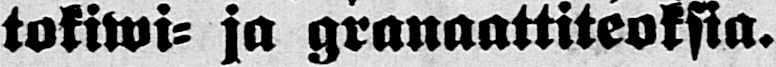tokiwi- ja granaattiteoksia.
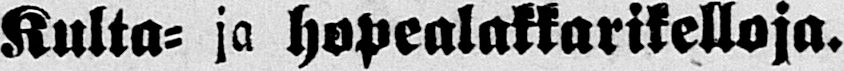Kulta- ja hopealakkarikelloja.
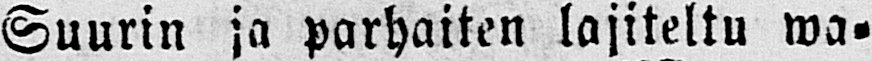Suurin ja parhaiten lajiteltu wa-
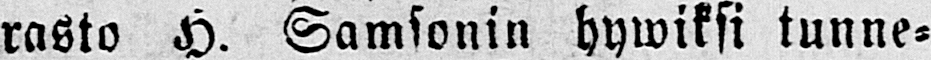rasto H. Samsonin hywiksi tunne-
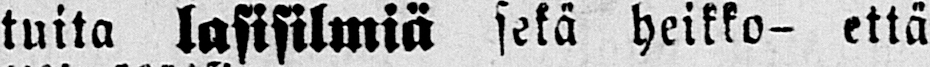tuita lasisilmiä sekä heikko- että
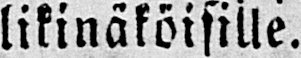likinäköisille.
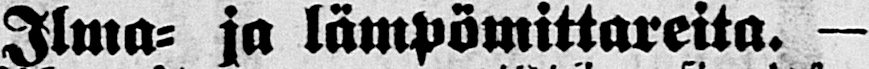Ilma- ja lämpömittareita. —
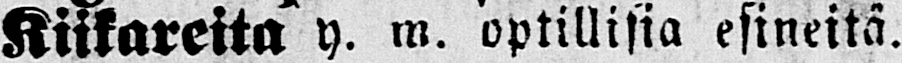Kiikareita y. m. optillisia esineitä.
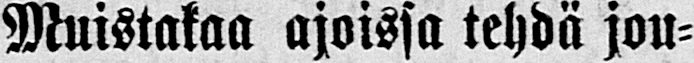Muistakaa ajoissa tehdä jou-
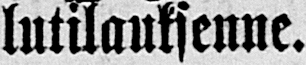lutilauksenue.
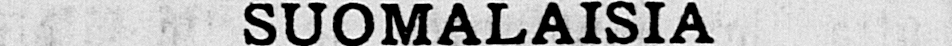SUOMALAISIA
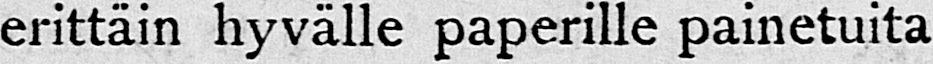erittäin hyvälle paperille painetuita
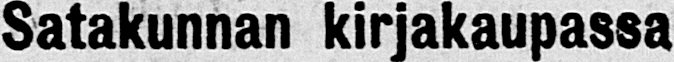Satakunnan kirjakaupassa.
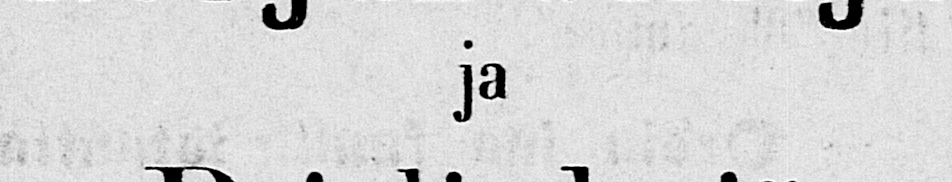ja
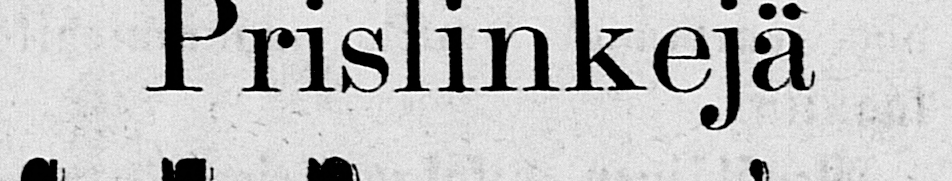Prislinkejä
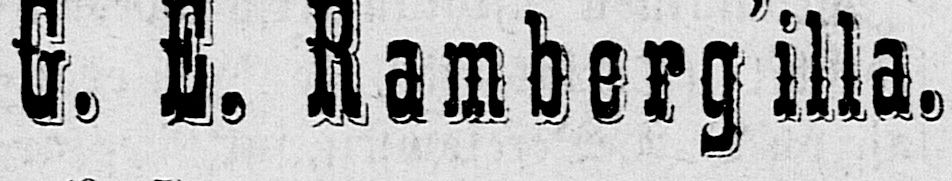G. E. Ramberg'illa.
